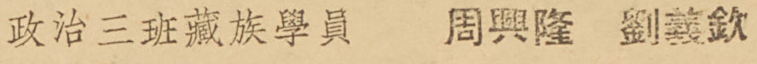政治三班藏族學員 周興隆 劉義欽
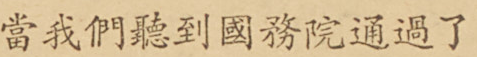當我們聽到國務院通過了
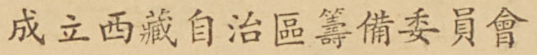成立西藏自治區籌備委員會
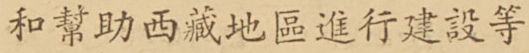和幫助西藏地區進行建設等
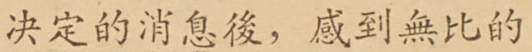決定 消息後，感到無比的
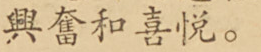興奮和喜悅。
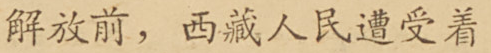解放前，西藏人民遭受着
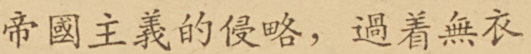帝國主義的侵略，過着無衣
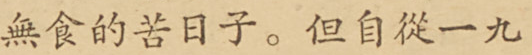無食的苦日子。但自從一九
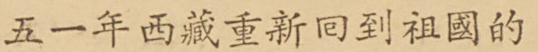五一年西藏重新囘到祖國的
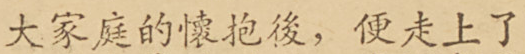大家庭的懷抱後，便走上了
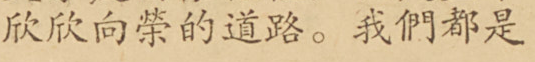欣欣向榮的道路。我們都是
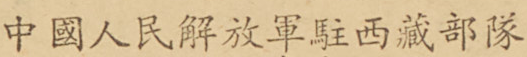中國人民解放軍駐西藏部隊
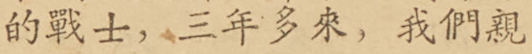的戰士，三年多來，我們親
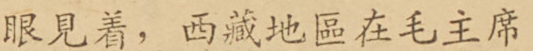眼見着，西藏地區在毛主席
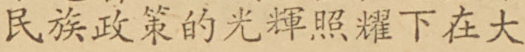民族政策的光輝照耀下在大
